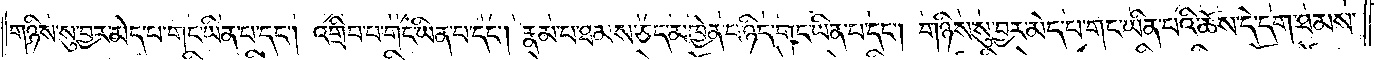གཉིས་སུ་བྱར་མེད་པ་གང་ཡིན་པ་དང༌། འགྲིབ་པ་གང་ཡིན་པ་དང༌། རྣམ་པ་ཐམས་ཅད་མཁྱེན་པ་ཉིད་གང་ཡིན་པ་དང༌། གཉིས་སུ་བྱར་མེད་པ་གང་ཡིན་པའི་ཆོས་དེ་དག་ཐམས་
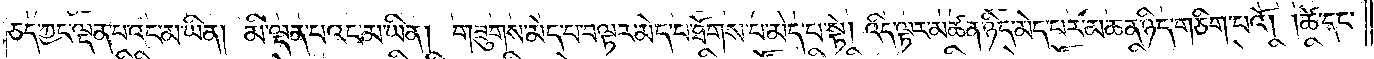ཅད་ཀྱང་ལྡན་པའང་མ་ཡིན། མི་ལྡན་པའང་མ་ཡིན། གཟུགས་མེད་པ་བལྟར་མེད་པ་ཐོགས་པ་མེད་པ་སྟེ། འདི་ལྟར་མཚན་ཉིད་མེད་པར་མཚན་ཉིད་གཅིག་པའོ། །ཚེ་དང་
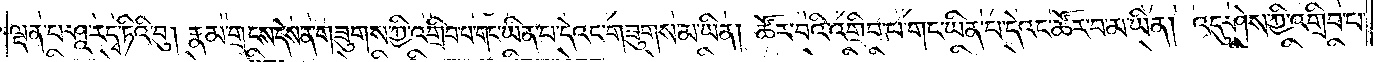ལྡན་པ་ཤཱ་ར་དྭ་ཏིའི་བུ། རྣམ་གྲངས་དེས་ན་གཟུགས་ཀྱི་འགྲིབ་པ་གང་ཡིན་པ་དེའང་གཟུགས་མ་ཡིན། ཚོར་བའི་འགྲིབ་པ་གང་ཡིན་པ་དེའང་ཚོར་བ་མ་ཡིན། འདུ་ཤེས་ཀྱི་འགྲིབ་པ་
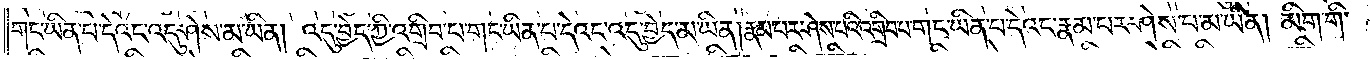གང་ཡིན་པ་དེའང་འདུ་ཤེས་མ་ཡིན། འདུ་བྱེད་ཀྱི་འགྲིབ་པ་གང་ཡིན་པ་དེའང་འདུ་བྱེད་མ་ཡིན། རྣམ་པར་ཤེས་པའི་འགྲིབ་པ་གང་ཡིན་པ་དེའང་རྣམ་པར་ཤེས་པ་མ་ཡིན། མིག་གི་
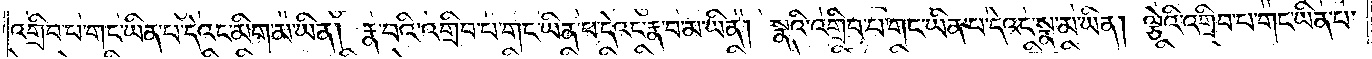འགྲིབ་པ་གང་ཡིན་པ་དེའང་མིག་མ་ཡིན། རྣ་བའི་འགྲིབ་པ་གང་ཡིན་པ་དེའང་རྣ་བ་མ་ཡིན། སྣའི་འགྲིབ་པ་གང་ཡིན་པ་དེའང་སྣ་མ་ཡིན། ལྕེའི་འགྲིབ་པ་གང་ཡིན་པ་
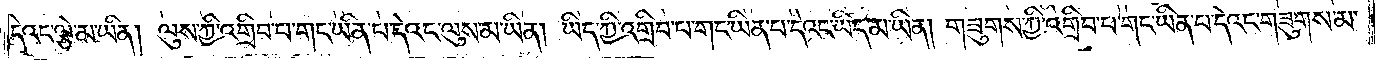དེའང་ལྕེ་མ་ཡིན། ལུས་ཀྱི་འགྲིབ་པ་གང་ཡིན་པ་དེའང་ལུས་མ་ཡིན། ཡིད་ཀྱི་འགྲིབ་པ་གང་ཡིན་པ་དེའང་ཡིད་མ་ཡིན། གཟུགས་ཀྱི་འགྲིབ་པ་གང་ཡིན་པ་དེའང་གཟུགས་མ་
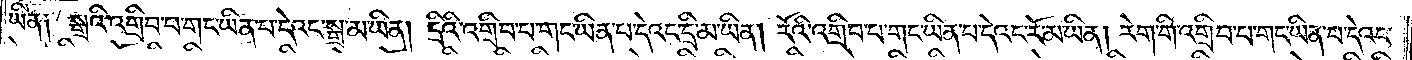ཡིན༏ སྒྲའི་འགྲིབ་པ་གང་ཡིན་པ་དེའང་སྒྲ་མ་ཡིན། དྲིའི་འགྲིབ་པ་གང་ཡིན་པ་དེའང་དྲི་མ་ཡིན། རོའི་འགྲིབ་པ་གང་ཡིན་པ་དེའང་རོ་མ་ཡིན། རེག་གི་འགྲིབ་པ་གང་ཡིན་པ་དེའང་
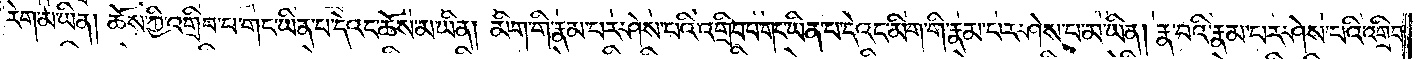རེག་མ་ཡིན། ཆོས་ཀྱི་འགྲིབ་པ་གང་ཡིན་པ་དེའང་ཆོས་མ་ཡིན། མིག་གི་རྣམ་པར་ཤེས་པའི་འགྲིབ་པ་གང་ཡིན་པ་དེའང་མིག་གི་རྣམ་པར་ཤེས་པ་མ་ཡིན། རྣ་བའི་རྣམ་པར་ཤེས་པའི་འགྲིབ་
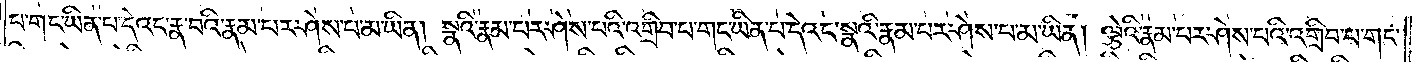པ་གང་ཡིན་པ་དེའང་རྣ་བའི་རྣམ་པར་ཤེས་པ་མ་ཡིན། སྣའི་རྣམ་པར་ཤེས་པའི་འགྲིབ་པ་གང་ཡིན་པ་དེའང་སྣའི་རྣམ་པར་ཤེས་པ་མ་ཡིན། ལྕེའི་རྣམ་པར་ཤེས་པའི་འགྲིབ་པ་གང་
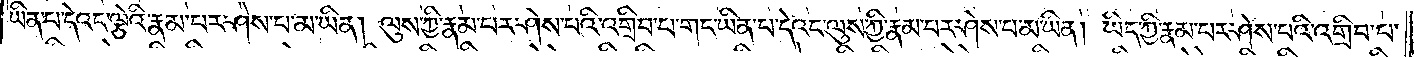ཡིན་པ་དེའང་ལྕེའི་རྣམ་པར་ཤེས་པ་མ་ཡིན། ལུས་ཀྱི་རྣམ་པར་ཤེས་པའི་འགྲིབ་པ་གང་ཡིན་པ་དེའང་ལུས་ཀྱི་རྣམ་པར་ཤེས་པ་མ་ཡིན། ཡིད་ཀྱི་རྣམ་པར་ཤེས་པའི་འགྲིབ་པ་
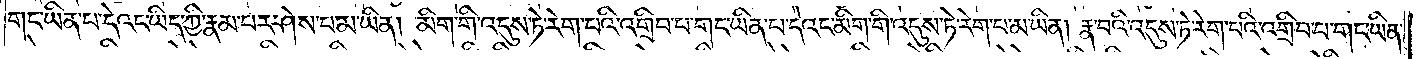གང་ཡིན་པ་དེའང་ཡིད་ཀྱི་རྣམ་པར་ཤེས་པ་མ་ཡིན། མིག་གི་འདུས་ཏེ་རེག་པའི་འགྲིབ་པ་གང་ཡིན་པ་དེའང་མིག་གི་འདུས་ཏེ་རེག་པ་མ་ཡིན། །རྣ་བའི་འདུས་ཏེ་རེག་པའི་འགྲིབ་པ་གང་ཡིན་
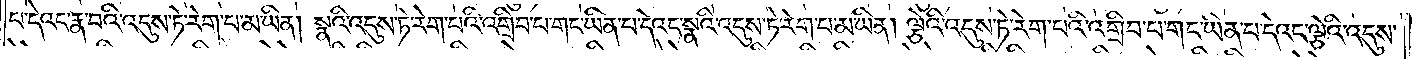པ་དེའང་རྣ་བའི་འདུས་ཏེ་རེག་པ་མ་ཡིན། སྣའི་འདུས་ཏེ་རེག་པའི་འགྲིབ་པ་གང་ཡིན་པ་དེའང་སྣའི་འདུས་ཏེ་རེག་པ་མ་ཡིན། ལྕེའི་འདུས་ཏེ་རེག་པའི་འགྲིབ་པ་གང་ཡིན་པ་དེའང་ལྕེའི་འདུས་
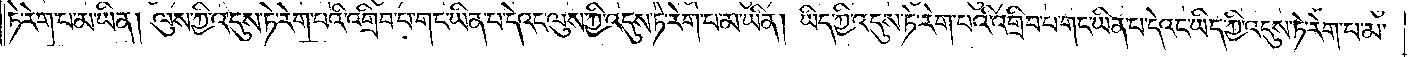ཏེ་རེག་པ་མ་ཡིན། ལུས་ཀྱི་འདུས་ཏེ་རེག་པའི་འགྲིབ་པ་གང་ཡིན་པ་དེའང་ལུས་ཀྱི་འདུས་ཏེ་རེག་པ་མ་ཡིན། ཡིད་ཀྱི་འདུས་ཏེ་རེག་པའི་འགྲིབ་པ་གང་ཡིན་པ་དེའང་ཡིད་ཀྱི་འདུས་ཏེ་རེག་པ་མ་
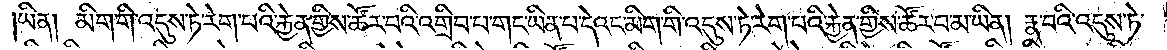ཡིན། མིག་གི་འདུས་ཏེ་རེག་པའི་རྐྱེན་གྱིས་ཚོར་བའི་འགྲིབ་པ་གང་ཡིན་པ་དེའང་མིག་གི་འདུས་ཏེ་རེག་པའི་རྐྱེན་གྱིས་ཚོར་བ་མ་ཡིན། རྣ་བའི་འདུས་ཏེ་
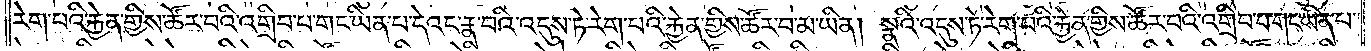རེག་པའི་རྐྱེན་གྱིས་ཚོར་བའི་འགྲིབ་པ་གང་ཡིན་པ་དེའང་རྣ་བའི་འདུས་ཏེ་རེག་པའི་རྐྱེན་གྱིས་ཚོར་བ་མ་ཡིན། སྣའི་འདུས་ཏེ་རེག་པའི་རྐྱེན་གྱིས་ཚོར་བའི་འགྲིབ་པ་གང་ཡིན་པ་
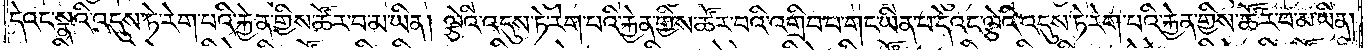དེའང་སྣའི་འདུས་ཏེ་རེག་པའི་རྐྱེན་གྱིས་ཚོར་བ་མ་ཡིན། ལྕེའི་འདུས་ཏེ་རེག་པའི་རྐྱེན་གྱིས་ཚོར་བའི་འགྲིབ་པ་གང་ཡིན་པ་དེའང་ལྕེའི་འདུས་ཏེ་རེག་པའི་རྐྱེན་གྱིས་ཚོར་བ་མ་ཡིན།
